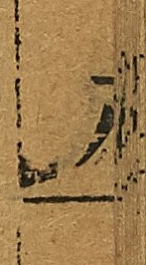八
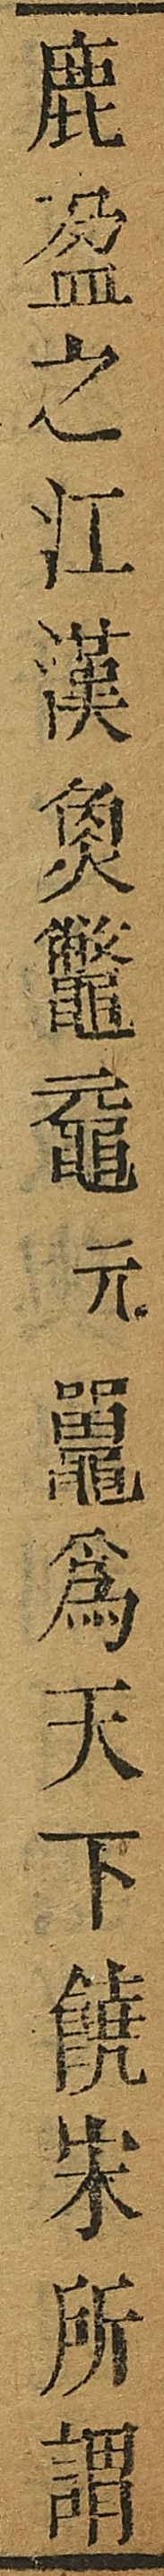鹿盈之冮漢炱鼇鼋元鼍爲天下饒宋所謂
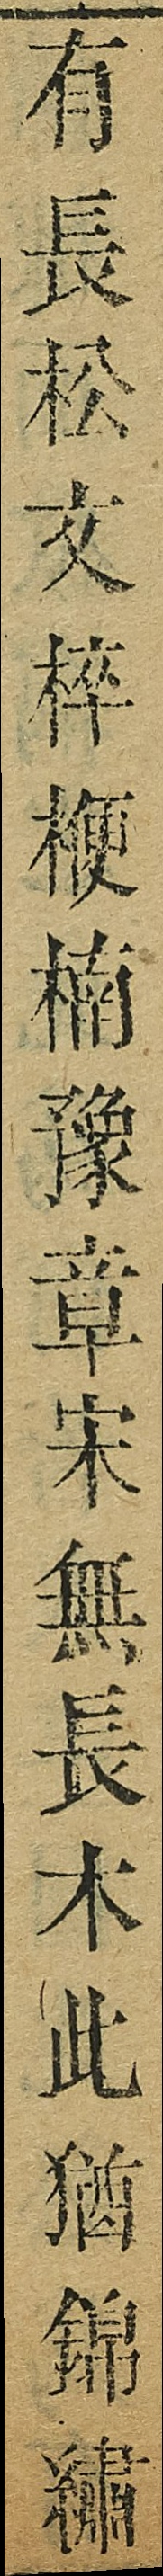有長菘文梓梗楠豫章宋無長木此猶錦繡
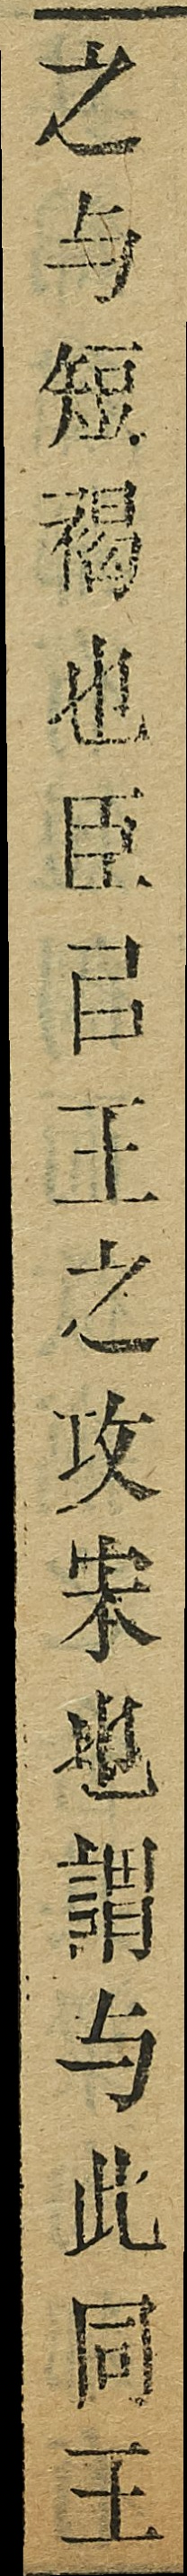之与短褐也臣官王之攻宋也詔与此同王
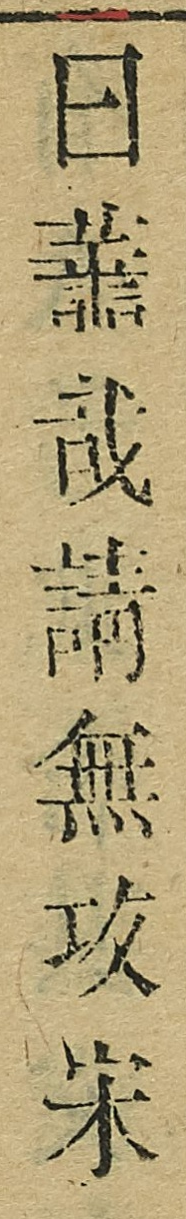曰蕭哉請無攻宋
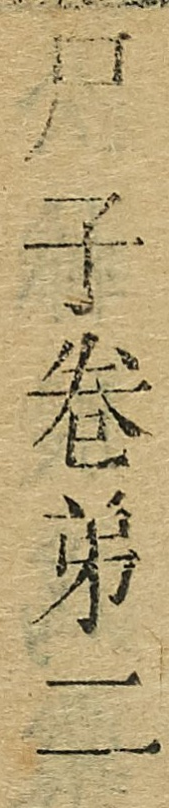尸子卷弟二
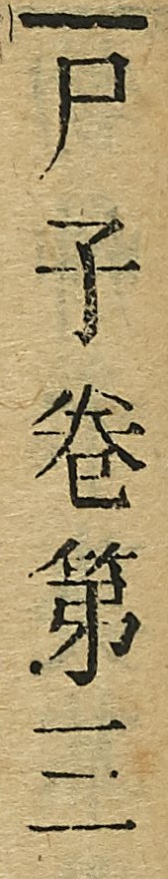尸子卷第三
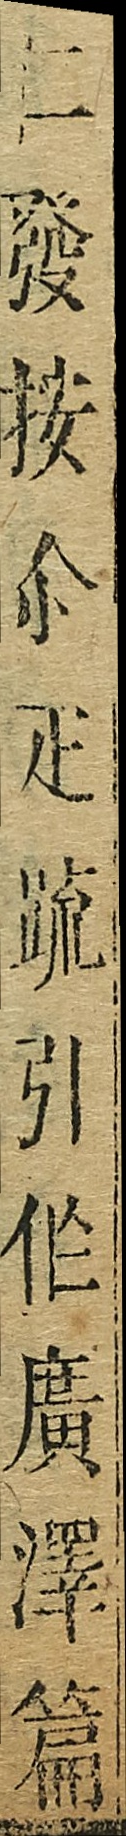二發按尒疋䟽引倫廣澤篇
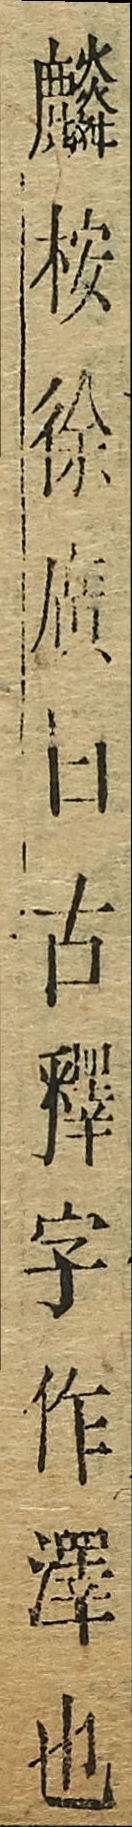麟桉徐廣日古釋字作澤也
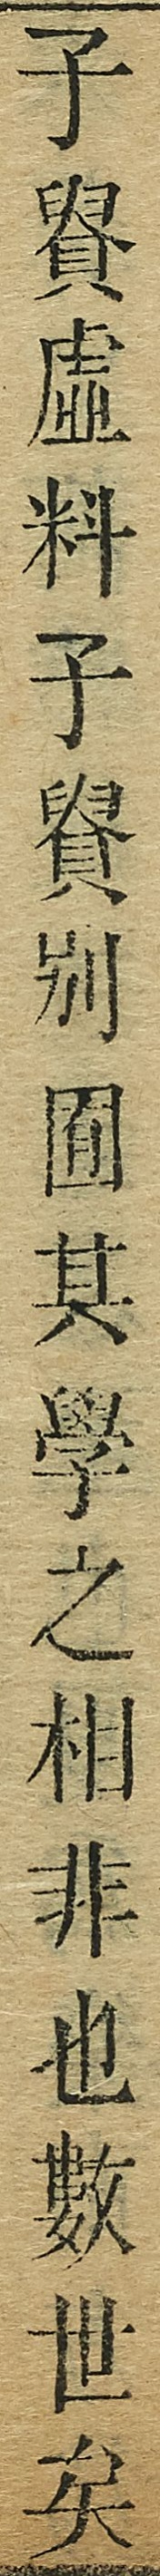子賽虛料子賽別囿其學之相非也數世矣
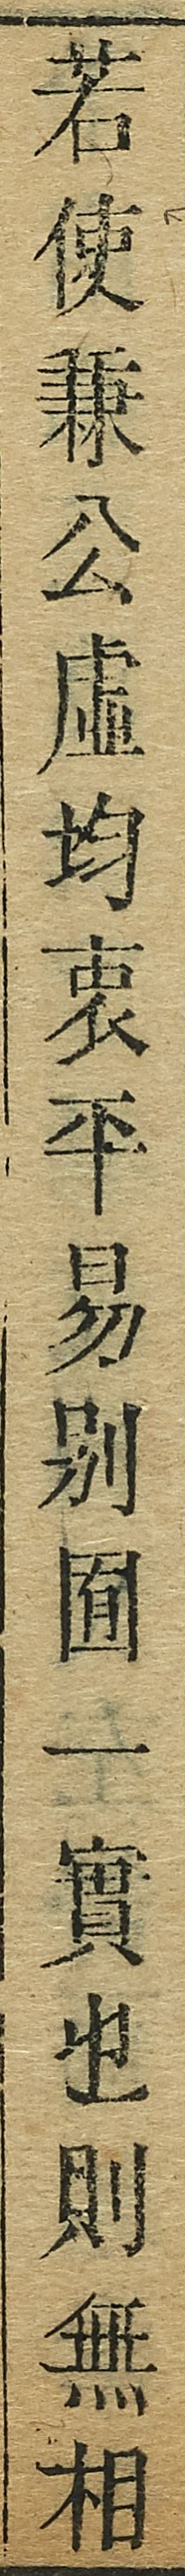若使兼公虛均衷平易别囿一實也則無相
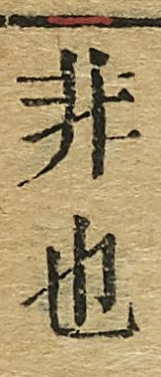非也
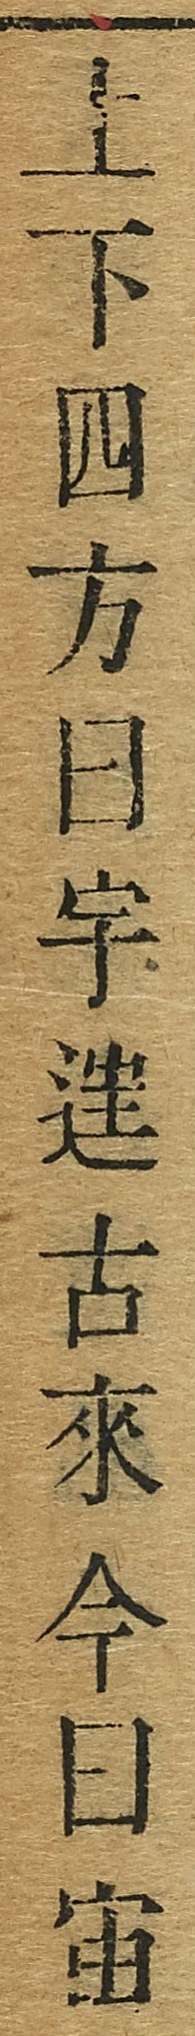上下四方日宇连古來今日宙
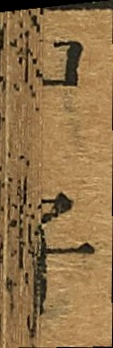尸子
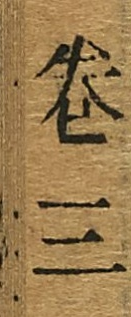卷三
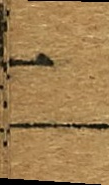一
